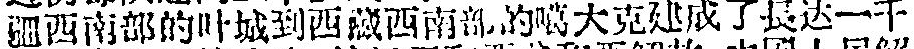疆西南部的叶城到西藏西南部的噶大克建成了長达一千
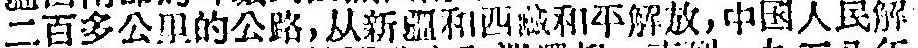二百多公里的公路，从新疆和西藏和平解放，中国人民解
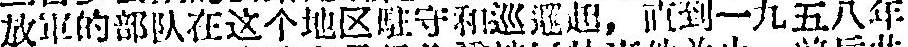放軍的部队在这个地区駐守和巡逻起，直到一九五八年
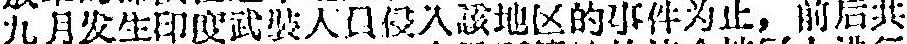九月发生印度武装人員侵入該地区的事件为止，前后共
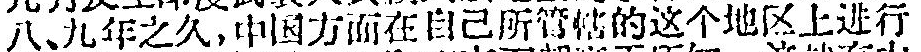八、九年之久，中国方面在自己所管轄的这个地区上进行
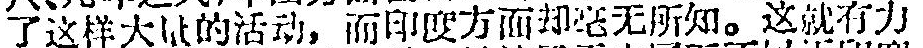了这样大量的活动，而印度方面却毫无所知。这就有力
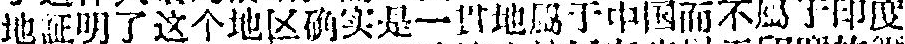地証明了这个地区确实是一貫地属于中国而不属于印度
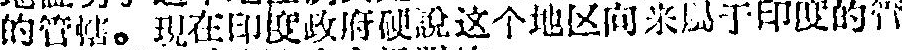的管轄。現在印度政府硬說这个地区向来属于印度的管
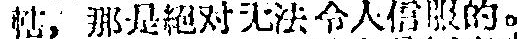轄，那是絕对无法令人信服的。
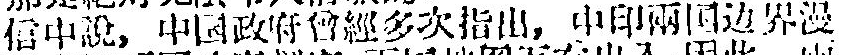信中說，中国政府曾經多次指出，中印兩国边界漫
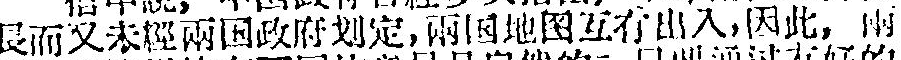長而又未經兩国政府划定，兩国地图互有出入，因此，兩
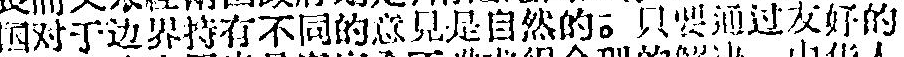国对于边界持有不同的意見是自然的。只要通过友好的
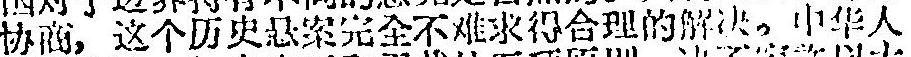协商，这个历史悬案完全不难求得合理的解决。中华人
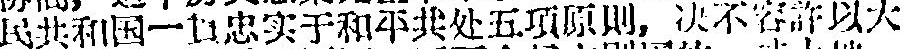民共和国一貫忠实于和平共处五項原則，以不容許以大
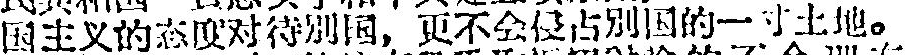国主义的态度对待別国，更不会侵占別国的一寸土地。
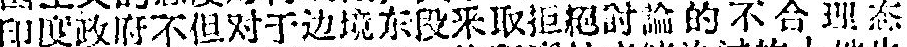印度政府不但对于边境东段采取拒絕討論的不合理态
